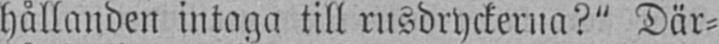hållanden intaga till rusdryckerna?" Där-
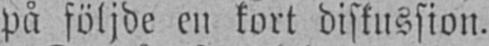på följde en kort diskussion.
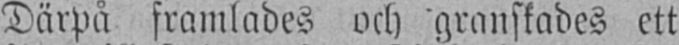Därpå framlades och granskades ett
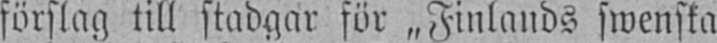förslag till stadgar för "Finlands swenska
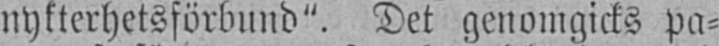nykterhetsförbund". Det genomgicks pa-
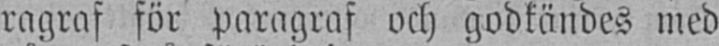ragraf för paragraf och godkändes med
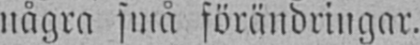några små förändringar.
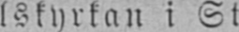Immanuelskyrkan i Stockholm
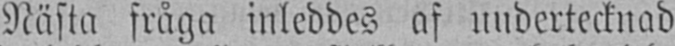Nästa fråga inleddes af undertecknad
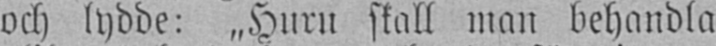och lydde: „Huru skall man behandla
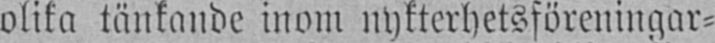olika tänkande inom nykterhetsföreningar-
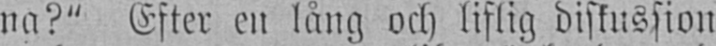na?" Efter en lång och liflig diskussion
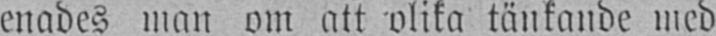enades man om att olika tänkande med
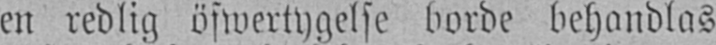en redlig öfwertygelse borde behandlas
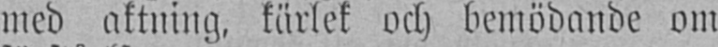med aktning, kärlek och bemödande om
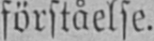förståelse.
